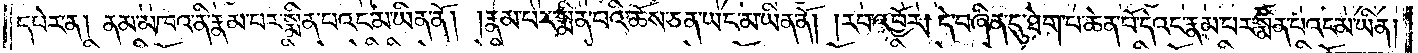དཔེར་ན། ནམ་མཁའ་ནི་རྣམ་པར་སྨིན་པའང་མ་ཡིན་ནོ། །རྣམ་པར་སྨིན་པའི་ཆོས་ཅན་ཡང་མ་ཡིན་ནོ། །རབ་འབྱོར། དེ་བཞིན་དུ་ཐེག་པ་ཆེན་པོ་དེའང་རྣམ་པར་སྨིན་པའང་མ་ཡིན།
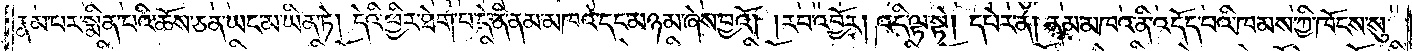རྣམ་པར་སྨིན་པའི་ཆོས་ཅན་ཡང་མ་ཡིན་ཏེ། དེའི་ཕྱིར་ཐེག་པ་དེ་ནི་ནམ་མཁའ་དང་མཉམ་ཞེས་བྱའོ། །རབ་འབྱོར། འདི་ལྟ་སྟེ། དཔེར་ན། ནམ་མཁའ་ནི་འདོད་པའི་ཁམས་ཀྱི་ཁོངས་སུ་
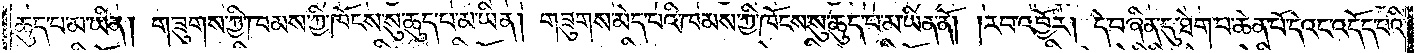ཆུད་པ་མ་ཡིན། གཟུགས་ཀྱི་ཁམས་ཀྱི་ཁོངས་སུ་ཆུད་པ་མ་ཡིན། གཟུགས་མེད་པའི་ཁམས་ཀྱི་ཁོངས་སུ་ཆུད་པ་མ་ཡིན་ནོ། །རབ་འབྱོར། དེ་བཞིན་དུ་ཐེག་པ་ཆེན་པོ་དེའང་འདོད་པའི་
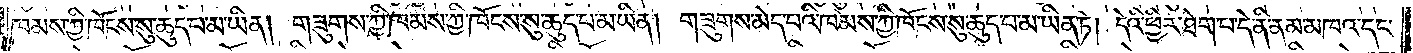ཁམས་ཀྱི་ཁོངས་སུ་ཆུད་པ་མ་ཡིན། གཟུགས་ཀྱི་ཁམས་ཀྱི་ཁོངས་སུ་ཆུད་པ་མ་ཡིན། གཟུགས་མེད་པའི་ཁམས་ཀྱི་ཁོངས་སུ་ཆུད་པ་མ་ཡིན་ཏེ། དེའི་ཕྱིར་ཐེག་པ་དེ་ནི་ནམ་མཁའ་དང་
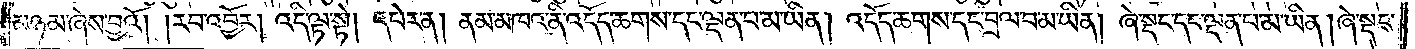མཉམ་ཞེས་བྱའོ། །རབ་འབྱོར། འདི་ལྟ་སྟེ། དཔེར་ན། ནམ་མཁའ་ནི་འདོད་ཆགས་དང་ལྡན་པ་མ་ཡིན། འདོད་ཆགས་དང་བྲལ་བ་མ་ཡིན། ཞེས་སྡང་དང་ལྡན་པ་མ་ཡིན། ཞེ་སྡང་
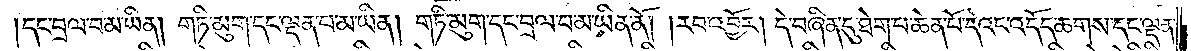དང་བྲལ་བ་མ་ཡིན། གཏི་མུག་དང་ལྡན་པ་མ་ཡིན། གཏི་མུག་དང་བྲལ་བ་མ་ཡིན་ནོ། །རབ་འབྱོར། དེ་བཞིན་དུ་ཐེག་པ་ཆེན་པོ་དེའང་འདོད་ཆགས་དང་ལྡན་
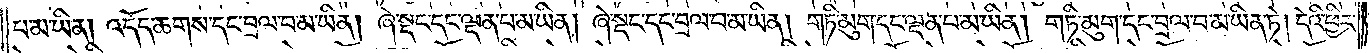པ་མ་ཡིན། འདོད་ཆགས་དང་བྲལ་བ་མ་ཡིན། ཞེ་སྡང་དང་ལྡན་པ་མ་ཡིན། ཞེ་སྡང་དང་བྲལ་བ་མ་ཡིན། གཏི་མུག་དང་ལྡན་པ་མ་ཡིན། གཏི་མུག་དང་བྲལ་བ་མ་ཡིན་ཏེ། དེའི་ཕྱིར་
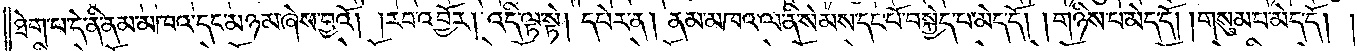ཐེག་པ་དེ་ནི་ནམ་མཁའ་དང་མཉམ་ཞེས་བྱའོ། །རབ་འབྱོར། འདི་ལྟ་སྟེ། དཔེར་ན། ནམ་མཁའ་ལ་ནི་སེམས་དང་པོ་བསྐྱེད་པ་མེད་དོ། །གཉིས་པ་མེད་དོ། །གསུམ་པ་མེད་དོ། །
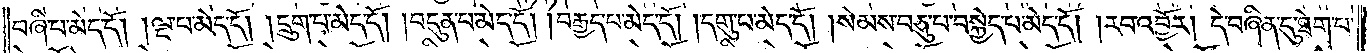བཞི་པ་མེད་དོ། །ལྔ་པ་མེད་དོ། །དྲུག་པ་མེད་དོ། །བདུན་པ་མེད་དོ། །བརྒྱད་པ་མེད་དོ། །དགུ་པ་མེད་དོ། །སེམས་བཅུ་པ་བསྐྱེད་པ་མེད་དོ། །རབ་འབྱོར། དེ་བཞིན་དུ་ཐེག་པ་
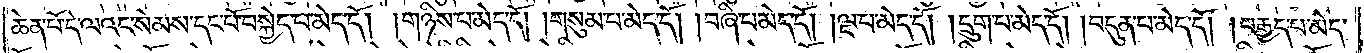ཆེན་པོ་དེ་ལའང་སེམས་དང་པོ་བསྐྱེད་པ་མེད་དོ། །གཉིས་པ་མེད་དོ། །གསུམ་པ་མེད་དོ། །བཞི་པ་མེད་དོ། །ལྔ་པ་མེད་དོ། །དྲུག་པ་མེད་དོ། །བདུན་པ་མེད་དོ། །བརྒྱད་པ་མེད་
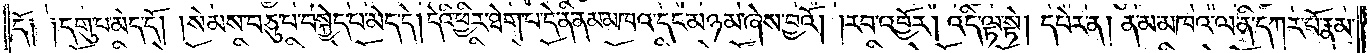དོ། །དགུ་པ་མེད་དོ། །སེམས་བཅུ་པ་བསྐྱེད་པ་མེད་དོ། །དེའི་ཕྱིར་ཐེག་པ་དེ་ནི་ནམ་མཁའ་དང་མཉམ་ཞེས་བྱའོ། །རབ་འབྱོར། འདི་ལྟ་སྟེ། དཔེར་ན། ནམ་མཁའ་ལ་ནི་དཀར་པོ་རྣམ་
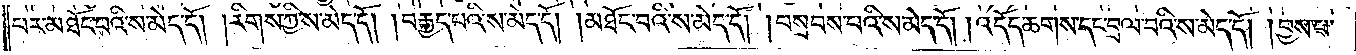པར་མཐོང་བའི་ས་མེད་དོ། །རིགས་ཀྱི་ས་མེད་དོ། །བརྒྱད་པའི་ས་མེད་དོ། །མཐོང་བའི་ས་མེད་དོ། །བསྲབས་པའི་ས་མེད་དོ། །འདོད་ཆགས་དང་བྲལ་བའི་ས་མེད་དོ། །བྱས་པ་
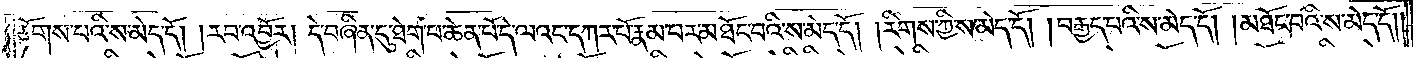རྟོགས་པའི་ས་མེད་དོ། །རབ་འབྱོར། དེ་བཞིན་དུ་ཐེག་པ་ཆེན་པོ་དེ་ལའང་དཀར་པོ་རྣམ་པར་མཐོང་བའི་ས་མེད་དོ། །རིགས་ཀྱི་ས་མེད་དོ། །བརྒྱད་པའི་ས་མེད་དོ། །མཐོང་བའི་ས་མེད་དོ། །
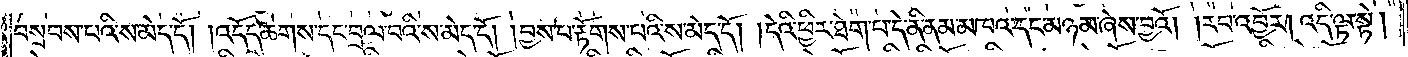བསྲབས་པའི་ས་མེད་དོ། །འདོད་ཆགས་དང་བྲལ་བའི་ས་མེད་དོ། །བྱས་པ་རྟོགས་པའི་ས་མེད་དོ། །དེའི་ཕྱིར་ཐེག་པ་དེ་ནི་ནམ་མཁའ་དང་མཉམ་ཞེས་བྱའོ། །རབ་འབྱོར། འདི་ལྟ་སྟེ།
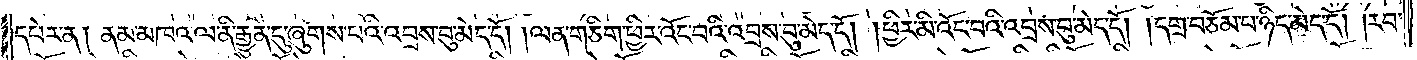དཔེར་ན། ནམ་མཁའ་ལ་ནི་རྒྱུན་དུ་ཞུགས་པའི་འབྲས་བུ་མེད་དོ། །ལན་ཅིག་ཕྱིར་འོང་བའི་འབྲས་བུ་མེད་དོ། །ཕྱིར་མི་འོང་བའི་འབྲས་བུ་མེད་དོ། །དགྲ་བཅོམ་པ་ཉིད་མེད་དོ། །རབ་
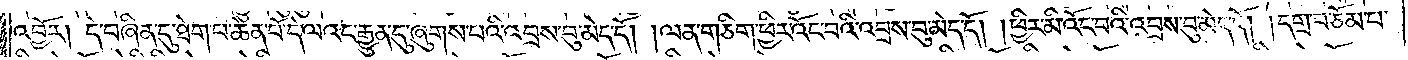འབྱོར། དེ་བཞིན་དུ་ཐེག་པ་ཆེན་པོ་དེ་ལའང་རྒྱུན་དུ་ཞུགས་པའི་འབྲས་བུ་མེད་དོ། །ལན་ཅིག་ཕྱིར་འོང་བའི་འབྲས་བུ་མེད་དོ། །ཕྱིར་མི་འོང་བའི་འབྲས་བུ་མེད་དོ། །དགྲ་བཅོམ་པ་
